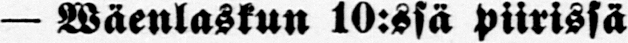— Wäenlaskun 10:ssä piirissä
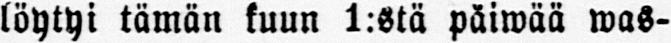löytyi tämän kuun 1:stä päiwää was-
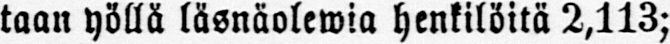taan yöllä läsnäolewia henkilöitä 2,113;
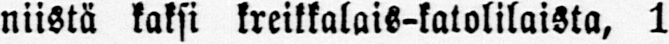niistä kaksi kreikkalais-katolilaista, 1
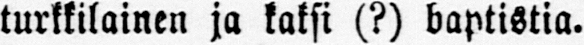turkkilainen ja kaksi (?) baptistia.
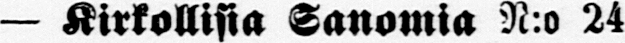— Kirkollisia Sanomia N: o 24
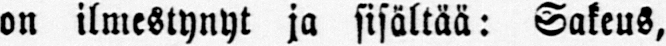on ilmestynyt ja sisältää: Sakeus,
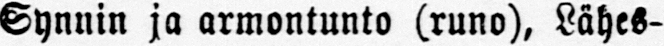Synnin ja armontunto (runo), Lähes-
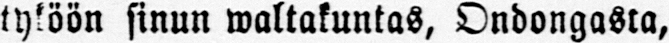tyköön sinun waltakuntas, Ondongasta,
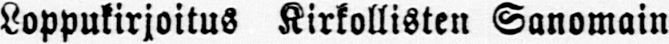Loppukirjoitus Kirkollisten Sanomain
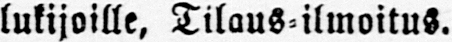lukijoille, Tilaus-ilmoitus.
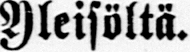Yleisöltä.
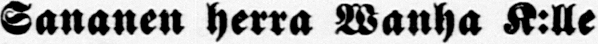Sananen herra Wanha K:lle
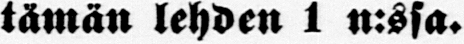tämän lehden 1 n:ssa.
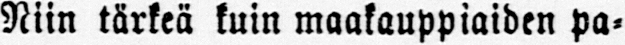Niin tärkeä kuin maakauppiaiden pa-
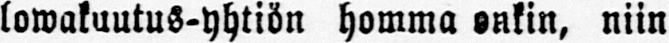lowakuutus-yhtiön homma onkin, niin
